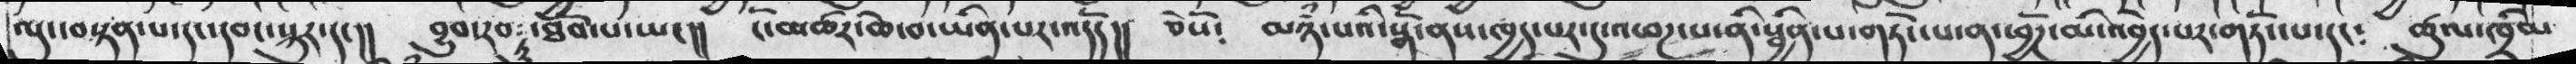ལུང་བསྟན་པ་དང་དབང་སྐུར་དང།།  བྱུབ་རབ་ཏུ་ཐོབ་པ་ཡང།།   ངོ་མཚར་ཆེ་བ་ཡིན་པར་འདོད།།  ཅེསོ༴   མཉཾ་པའི་སྒོ་ནས་ཁྱད་པར་དུ་འཕཌ་པ་ནི་སྦྱིན་པ་གཏོང་པ་ན་ཕྱོཌ་མི་འབྱིད་པར་གཏོད་པ་དང༴   ཚུལ་ཁྲིམ
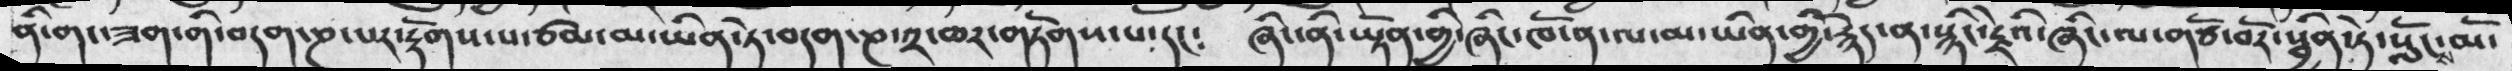ནི་གང་ཟག་གི་བདག་ཎ་པར་རྟོགས་པ་ཙམ་མ་ཡིན་ཏེ་བདག་ཎ་༢་ཆར་གཏོགས་པ་དང༴   ཞིང་ནི་ཡྟོན་གྱི་ཞིང་ཁོ་ན་ལ་མ་ཡིན་གྱི་རྙེད་ན་སྙིང་རྫེའི་ཞིང་ལ་གཙོ་བོར་སྦྱིན་ཏེ་སློངས་མོ་
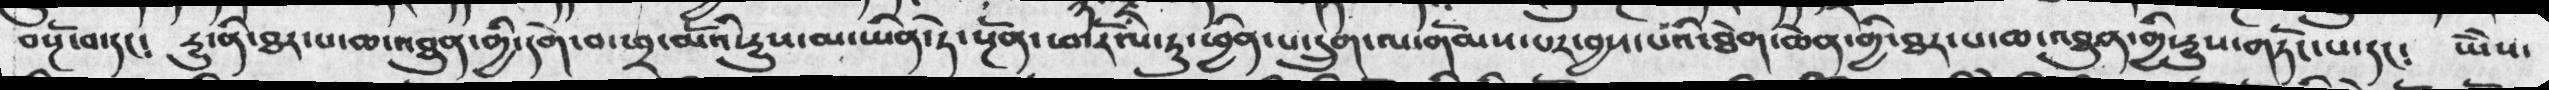བསྔོ་བ་དང༴   རྱུ་ནི་ཐར་པ་ཆ་མཐུན་གྱི་དགེ་བ་ཕྲ་མོའི་རྱུན་མ་ཡིན་ཏེ་སྔོན་ཕ་རོལ་ཏུ་ཕྱིན་པ་དྲུག་ལ་གོམས་པར་བྱས་པའི་ཐེག་ཆེན་གྱི་ཐར་པ་ཆ་འཐུན་གྱི་རྱུས་གཏོང་པ་དང༴   ཡེེས་
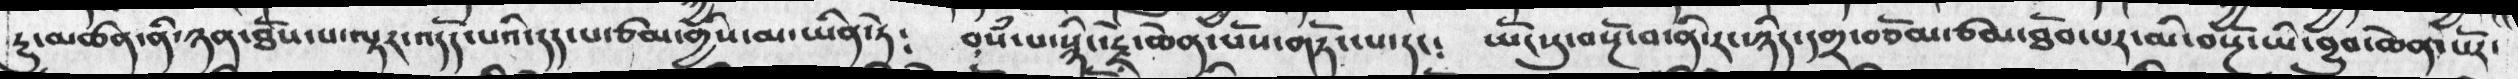རྱུ་མཚན་ནི་ཉན་ཐོས་པ་ལྟར་འདོད་པའི་དད་པ་ཙམ་གྱིས་མ་ཡིན་ཏེ༴   བསཾ་པ་སྙིང་རྗེ་ཆེན་པོས་གཏོང་པ་དང༴   ཡོངསུ་བསྔོ་བ་ནི་རང་ཉིད་དགྲ་བཅོམ་ཙམ་ཐོབ་པར་མི་བསྔོ་ཡི་བྱུབ་ཆེན་པོར་
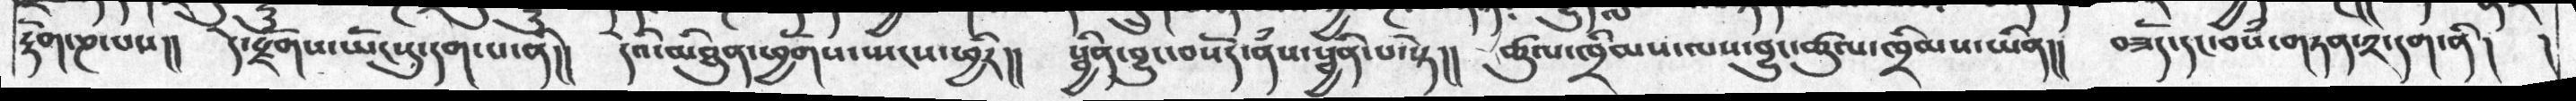རྟོག་ཎ་པས།།  དེ་རྫོགས་ཡོངསུ་དག་པ་ནི།།  དེའི་མཐིུན་ཕྱོགས་སྤངས་ཕྱིར།།  སྦྱིན་བྱུང་བསོད་ནཾས་སྦྱིན་པ་སྟེ།།  ཚུལ་ཁྲིམས་ལས་བྱུང་ཚུལ་ཁྲིམས་ཡིན།།  བཟོད་དང་བསཾ་གཏན་༢་དག་ནི།  །
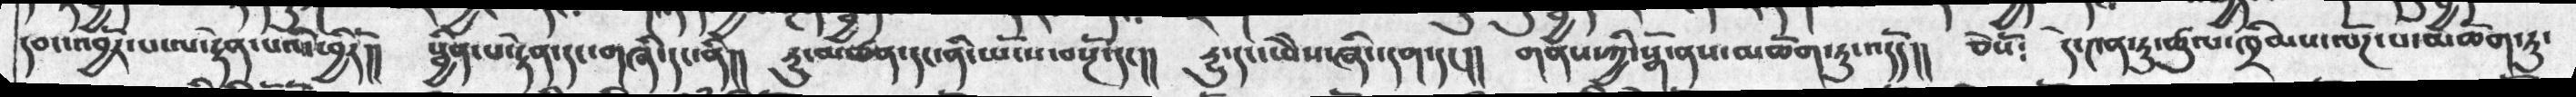དབང་འབྱོར་པ་ལ་རྟེན་པའི་ཕྱིརོ།།  སྦྱིན་པ་རྟེན་དང་གཞི་དང་ནི།།  དྱུ་མཚན་དང་ནི་ཡོངས་བསྔོ་དང་།།  དྱུ་དང་ཡེེས་ཞིང་དག་དང།།  གནས་ཀྱི་སྒོ་ནས་མཆོག་ཏུ་འདོད།  ཅེསོ༴   དེ་༤ན་ཏུ་ཚུལ་ཁྲིམས་ལོཌ་པ་མཆོག་ཏུ་
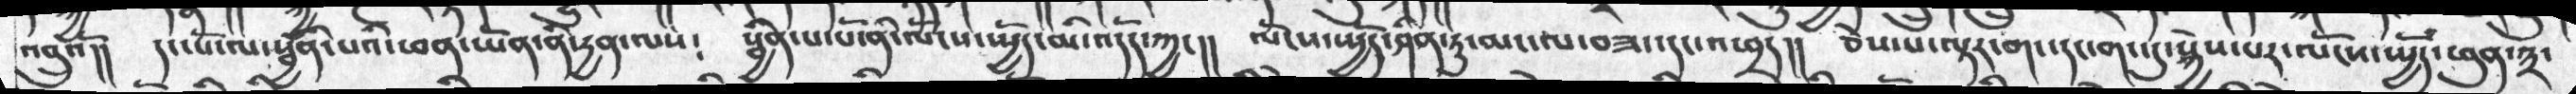འབྲུའོ།།  དང་པོ་ལ་སྦྱིན་པའི་ཕན་ཡོན་ནི་རྱན་ལས༴  སྦྱིན་པ་པོ་ནི་ལོངས་སྤྱོད་མི་འདོད་ཀྱང་།།  ལོངས་སྤྱོད་ཤིན་ཏུ་མང་ལ་བཟད་དང་འཕྲད།།  ཅེས་པ་ལྟར་གང་དང་གང་དུ་སྐྱེས་པར་ལོངས་སྤྱོད་ཕུན་༣་
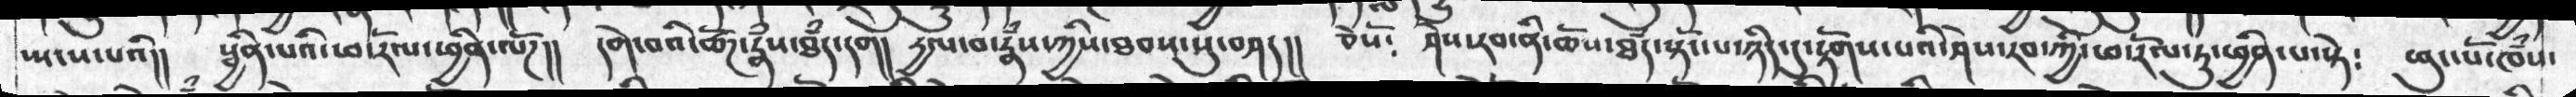སྤངས་པའི།།   སྦྱིན་པའི་ཕ་རོལ་ཕྱིན་ལོཌ།།  དགེ་བའི་ཚོཌ་རྣཾས་ཐཾད་དགེ།  རྱལ་བ་རྣཾས་ཀྱིས་ཐབས་སུ་བཤད།།  ཅེསོ༴   ཤེས་རབ་ནི་ཆོས་ཐཾད་སྟོང་པ་ཉིད་དུ་རྟོགས་པའི་ཤེས་རབ་ཀྱི་ཕ་རོལ་ཏུ་ཕྱིན་པ་སྟེ༴  ཕུང་པོ་ཁཾས་
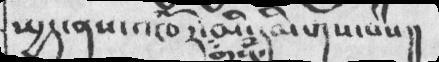སྤྱད་ནས་འཁོར་གསུཾ་མི་དམིགས་པས།།
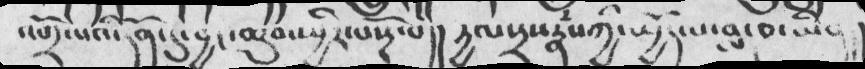འགྲོ་པའི་དོན་དུ་བྱང་ཆུབ་ཕྱིར་བསྔོ་པ།།  རྱལ་སྲས་རྣཾས་ཀྱི་སྤྱོད་པ་བླ་བ་ཡིན།།
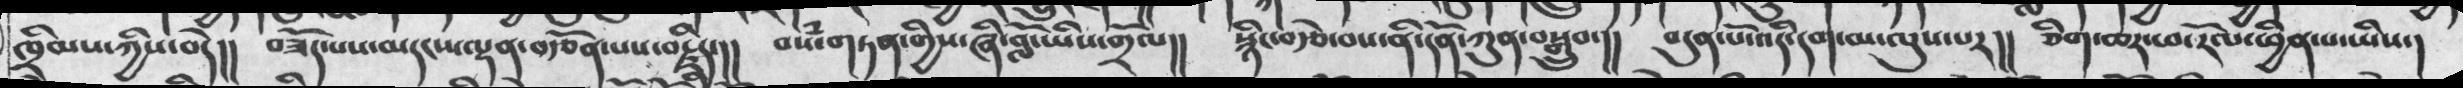ཁྲིམས་ཀྱིས་བདེ།།  བཟོད་པས་མདངས་ལྡན་བརྩོན་པས་བརྗིད་།།  བསཾ་གཏན་གྱིས་ཞི་བློ་ཡིས་གྲོལ།།  སྙིང་བརྩེ་བས་ནི་དོན་ཀུན་བསྒྲུབ་།།  བདུན་པོ་འདི་དག་མ་ལུས་པར།།  ཅིག་ཆར་ཕ་རོལ་ཕྱིན་པ་ཡིས་།
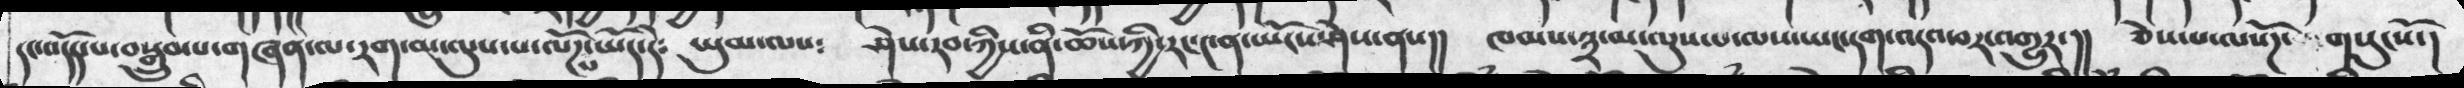དང་འདོད་པ་བསྒྲུབ་པ་གཞན་ལ་རག་མ་ལུས་པ་ལོཌ་པ་ཡོད་དེ༴  ཡུམ་ལས༴  ཤེས་རབ་ཀྱིས་ནི་ཆོས་ཀྱི་རང་༤ན་ཡོངས་ཤེས་ནས།།  ཁམས་༣་མ་ལུས་པ་ལས་ཡང་དག་འདའ་བར་འགྱུར་།།   ཅེས་པ་ལསོཌ་གསུངསོ་།
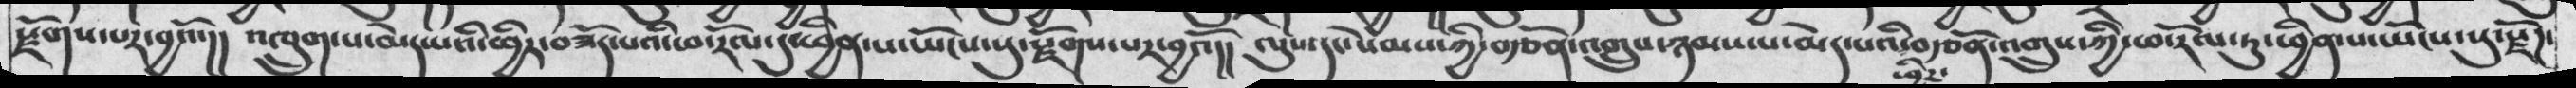རྫོགས་པར་བྱའོ་།།  འཁྲུག་པ་མེད་པའི་ཕྱིར་བཟོད་པའི་ཕ་རོལ་དུ་ཕྱིན་པ་ཡོངས་སུ་རྫོགས་པར་བྱའོ།།  ལུས་དང་སེམས་ཀྱི་བརྩོན་འགྲུས་ཉམས་པ་མེད་པའི་ཕྱིར་བརྩོན་འགྲུས་ཀྱི་ཕ་རོལ་ཏུ་ཕྱིན་པ་ཡོངས་སུ་རྫོཌ་
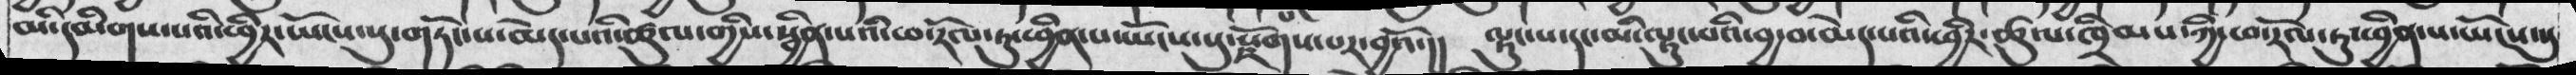མི་དམིགས་པའི་ཕྱིར་ཡོངས་སུ་གཏོང་པ་མེད་པའི་ཚུལ་གྱིས་སྦྱིན་པའི་ཕ་རོལ་ཏུ་ཕྱིན་པ་ཡོངས་སུ་རྫོགས་པར་བྱའོ་།།  ལྟུང་པ་དང་མི་ལྟུང་བའི་བྱ་བ་མེད་པའི་ཕྱིར་ཚུལ་ཁྲིམས་ཀྱི་ཕ་རོལ་ཏུ་ཕྱིན་པ་ཡོངས་སུ་
